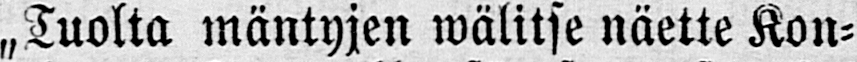„Tuolta mäntyjen wälitse näette Kon-
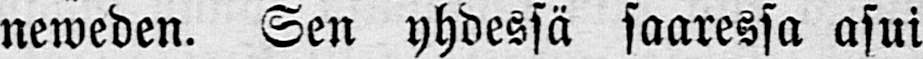neweden. Sen yhdessä saaressa asui
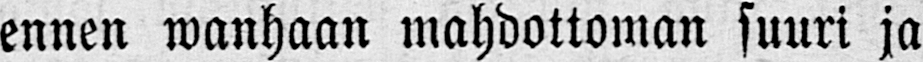ennen wanhaan mahdottoman suuri ja
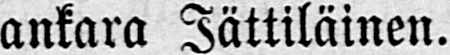ankara Jättiläinen.
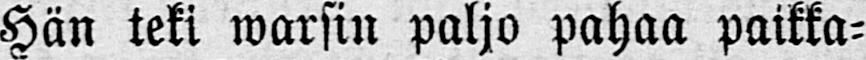Hän teki warsin paljo pahaa paikka-
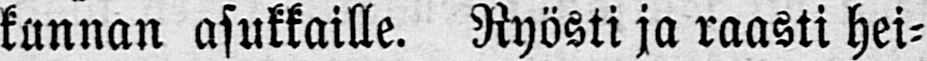kunnan asukkaille. Ryösti ja raasti hei-
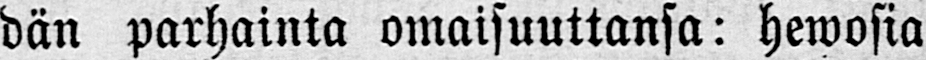dän parhainta omaisuuttansa: hewosia
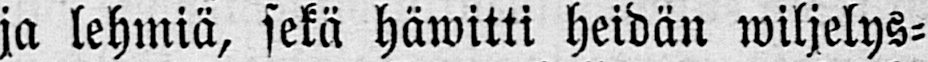ja lehmiä, sekä häwitti heidän wiljelys-
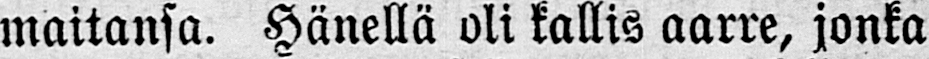maitansa. Hänellä oli kallis aarre, jonka
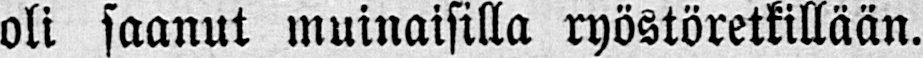oli saanut muinaisilla ryöstöretkillään.
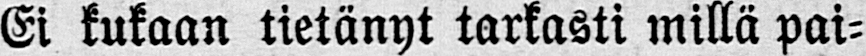Ei kukaan tietänyt tarkasti millä pai-
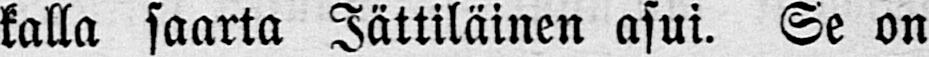kalla saarta Jättiläinen asui. Se on
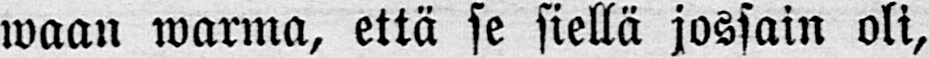waan warma, että se siellä jossain oli,
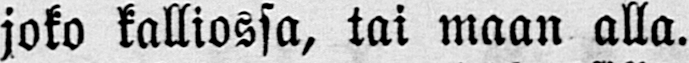joko kalliossa, tai maan alla.
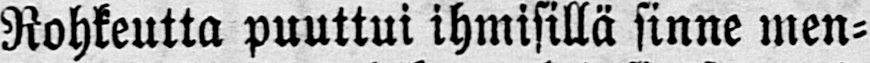Rohkeutta puuttui ihmisillä sinne men-
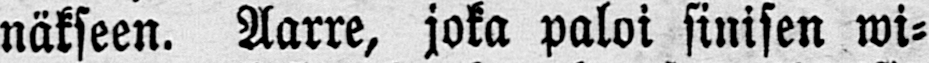näkseen. Aarre, joka paloi sinisen wi-
